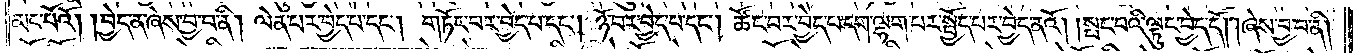མང་པོའོ། །བྱེད་ན་ཞེས་བྱ་བ་ནི། ལེན་པར་བྱེད་པ་དང༌། གཏོང་བར་བྱེད་པ་དང༌། ཉོ་བར་བྱེད་པ་དང༌། ཚོང་བར་བྱེད་པ་དག་ལྷག་པར་སྤྱོད་པར་བྱེད་ནའོ། །སྤང་བའི་ལྟུང་བྱེད་དོ། །ཞེས་བྱ་བ་ནི།
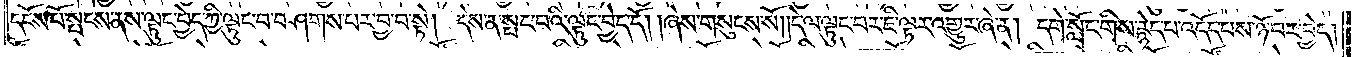དངོས་པོ་སྤངས་ནས་ལྟུང་བྱེད་ཀྱི་ལྟུང་བ་བཤགས་པར་བྱ་བ་སྟེ། དེས་ན་སྤང་བའི་ལྟུང་བྱེད་དོ། །ཞེས་གསུངས་སོ། །དེ་ལ་ལྟུང་བར་ཇི་ལྟར་འགྱུར་ཞེ་ན། དགེ་སློང་གིས་རྙེད་པ་འདོད་པས་ཉོ་བར་བྱེད།
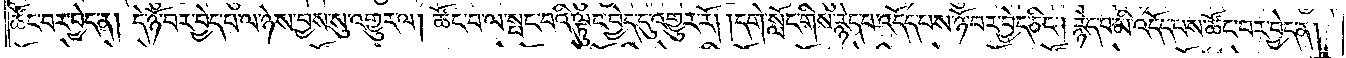ཚོང་བར་བྱེད་ན། དེ་ཉོ་བར་བྱེད་པ་ལ་ཉེས་བྱས་སུ་འགྱུར་ལ། ཚོང་བ་ལ་སྤང་བའི་ལྟུང་བྱེད་དུ་འགྱུར་རོ། །དགེ་སློང་གིས་རྙེད་པ་འདོད་པས་ཉོ་བར་བྱེད་ཅིང༌། རྙེད་པ་མི་འདོད་པས་ཚོང་བར་བྱེད་ན།
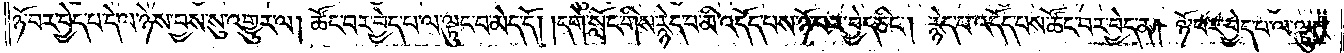ཉོ་བར་བྱེད་པ་དེ་ལ་ཉེས་བྱས་སུ་འགྱུར་ལ། ཚོང་བར་བྱེད་པ་ལ་ལྟུང་བ་མེད་དོ། །དགེ་སློང་གིས་རྙེད་པ་མི་འདོད་པས་ཉོ་བར་བྱེད་ཅིང༌། རྙེད་པ་འདོད་པས་ཚོང་བར་བྱེད་ན། ཉོ་བར་བྱེད་པ་ལ་ལྟུང་
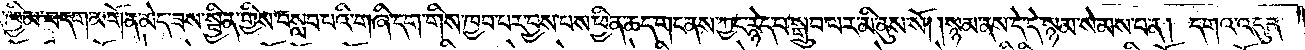ཁྱིམ་བདག་མགོན་མེད་ཟས་སྦྱིན་གྱིས་བསླབ་པའི་གཞི་དག་གིས་ཁྱབ་པར་བྱས་པས་ཕྱིན་ཆད་གང་ནས་ཀྱང་རྙེད་པ་སྒྲུབ་པར་མི་ནུས་སོ། །སྙམ་ནས་དེ་དེ་སྙམ་སེམས་པ་ན། དགའ་འདུན་
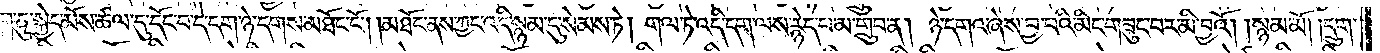དྲུག་ཅུ་སྐྱེད་མོས་ཚལ་དུ་དོང་བ་དེ་དག་ཉེ་དགས་མཐོང་ངོ༌། །མཐོང་ནས་ཀྱང་འདི་སྙམ་དུ་སེམས་ཏེ། གལ་ཏེ་འདི་དག་ལས་རྙེད་པ་མ་གྲུབ་ན། ཉེ་དགའ་ཞེས་བྱ་བའི་མིང་གཟུང་བར་མི་བྱའོ། །སྙམ་མོ། །དྲུག་
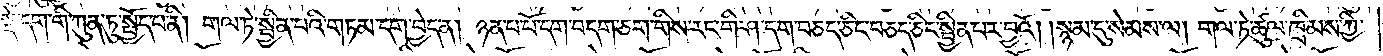སྡེ་དག་གི་ཀུན་ཏུ་སྤྱོད་པ་ནི། གལ་ཏེ་སྦྱིན་པའི་གཏམ་དག་བྱེད་ན། ཉན་པ་པོ་དག་བདག་ཅག་གིས་རང་གི་ཤ་དག་བཅད་ཅིང་བཅད་ཅིང་སྦྱིན་པར་བྱའོ། །སྙམ་དུ་སེམས་ལ། གལ་ཏེ་ཚུལ་ཁྲིམས་ཀྱི་
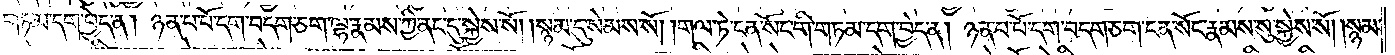གཏམ་དག་བྱེད་ན། ཉན་པ་པོ་དག་བདག་ཅག་ལྷ་རྣམས་ཀྱི་ནང་དུ་སྐྱེས་སོ། །སྙམ་དུ་སེམས་སོ། །གལ་ཏེ་ངན་སོང་གི་གཏམ་དག་བྱེད་ན། ཉན་པ་པོ་དག་བདག་ཅག་ངན་སོང་རྣམས་སུ་སྐྱེས་སོ། །སྙམ་
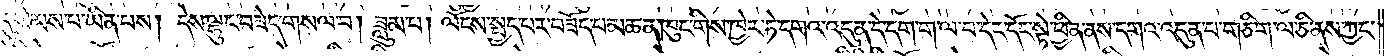དུ་སེམས་པ་ཡིན་པས། དེས་ལྷུང་བཟེད་གསལ་བ། ཟླུམ་པ། ལོངས་སྤྱད་པར་བཟོད་པ་མཆན་ཁུང་གིས་ཁྱེར་ཏེ་དགའ་འདུན་དེ་དག་ག་ལ་བ་དེར་དོང་སྟེ་ཕྱིན་ནས་དགའ་འདུན་པ་གཅིག་ལ་ཅི་ནས་ཀྱང་
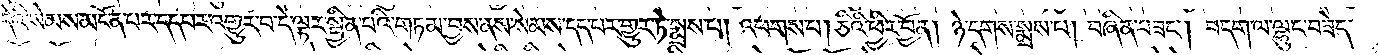དེའི་སེམས་མངོན་པར་དད་པར་འགྱུར་བ་དེ་ལྟར་སྦྱིན་པའི་གཏམ་བྱས་ནས་སེམས་དད་པར་གྱུར་ཏེ་སྨྲས་པ། འཕགས་པ། ཅིའི་ཕྱིར་བྱོན། ཉེ་དགས་སྨྲས་པ། བཞིན་བཟང༌། བདག་ལ་ལྷུང་བཟེད་
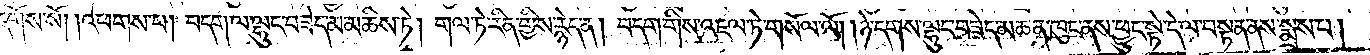དགོས་སོ། །འཕགས་པ། བདག་ལ་ལྷུང་བཟེད་མ་མཆིས་ཏེ། གལ་ཏེ་རིན་གྱིས་རྙེད་ན། བདག་གིས་འཇལ་ཏེ་གསོལ་ལོ། །ཉེ་དགས་ལྷུང་བཟེད་མཆན་ཁུང་ནས་ཕྱུང་སྟེ་དེ་ལ་བསྟན་ནས་སྨྲས་པ།
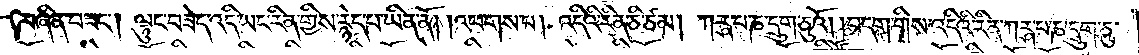བཞིན་བཟང༌། ལྷུང་བཟེད་འདི་ཡང་རིན་གྱིས་རྙེད་པ་ཡིན་ནོ། །འཕགས་པ། འདིའི་རིན་ཅི་ཙམ། ཀ་ཎ་དྲུག་ཅུའོ། །བདག་གིས་འདིའི་རིན་ཀཪྴ་པ་ཎ་དྲུག་ཅུ་
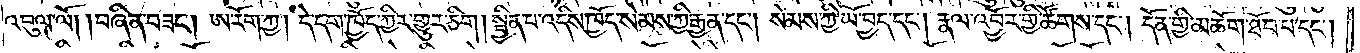འབུལ་ལོ། །བཞིན་བཟང༌། ཨ་རོག་ཀྱ། དེ་དག་ཁྱོད་ཀྱིར་གྱུར་ཅིག །སྦྱིན་པ་འདིས་ཁྱོད་སེམས་ཀྱི་རྒྱན་དང༌། སེམས་ཀྱི་ཡོ་བྱད་དང༌། རྣལ་འབྱོར་གྱི་ཚོགས་དང༌། དོན་གྱི་མཆོག་ཐོབ་པ་དང༌།
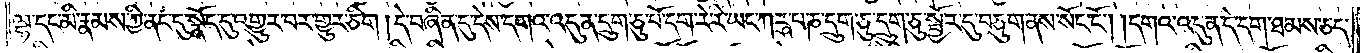ལྷ་དང་མི་རྣམས་ཀྱི་ནང་དུ་སྣོད་དུ་འགྱུར་བར་གྱུར་ཅིག །དེ་བཞིན་དུ་དེས་དགའ་འདུན་དྲུག་ཅུ་པོ་དག་རེ་རེ་ཡང་ཀརྴ་པ་ཎ་དྲུག་ཅུ་དྲུག་ཅུ་སྦྱོར་དུ་བཅུག་ནས་སོང་ངོ༌། །དགའ་འདུན་དེ་དག་ཐམས་ཅད་
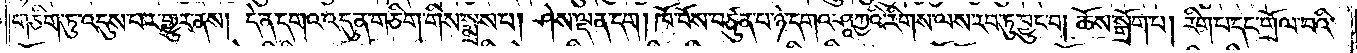གཅིག་ཏུ་འདུས་པར་གྱུར་ནས། དེ་ན་དགའ་འདུན་གཅིག་གིས་སྨྲས་པ། ཤེས་ལྡན་དག །ཁོ་བོས་བཙུན་པ་ཉེ་དགའ་ཤཱཀྱའི་རིགས་ལས་རབ་ཏུ་བྱུང་བ། ཆོས་སྒྲོག་པ། རིག་པ་དང་གྲོལ་བའི་
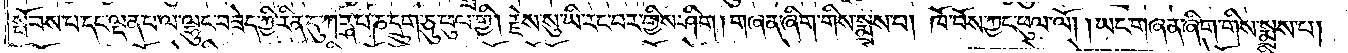སྤོབས་པ་དང་ལྡན་པ་ལ་ལྷུང་བཟེད་ཀྱི་རིན་དུ་ཀརྴ་པ་ཎ་དྲུག་ཅུ་ཕུལ་གྱི། རྗེས་སུ་ཡི་རང་བར་གྱིས་ཤིག །གཞན་ཞིག་གིས་སྨྲས་པ། ཁོ་བོས་ཀྱང་ཕུལ་ལོ། །ཡང་གཞན་ཞིག་གིས་སྨྲས་པ།
